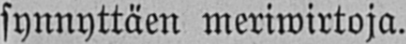synnyttäen merimirtoja.
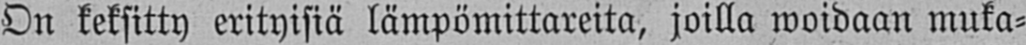On keksitty erityisiä lämpömittareita, joilla woidaan muka-
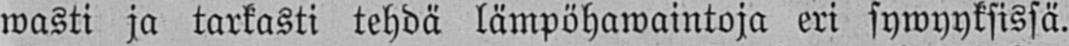wasti ja tarkasti tehdä lämpöhawaintoja eri sywyyksissä.
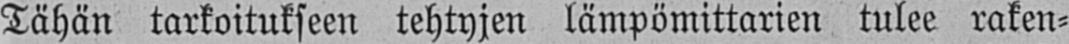Tähän tarkoitukseen tehtyjen lämpömittarien tulee raken-
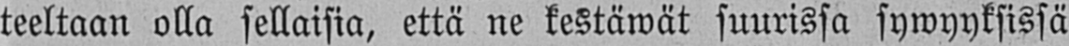teeltaan olla sellaisia, että ne kestäwät suurissa sywyyksissä
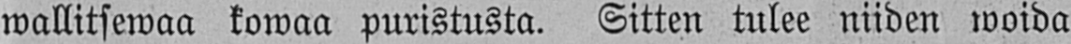wallitsewaa kowaa puristusta. Sitten tulee niiden woida
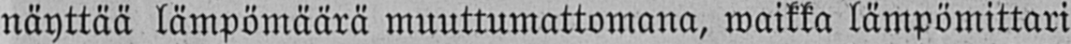näyttää lämpömäärä muuttumattomana, waikka lämpömittari
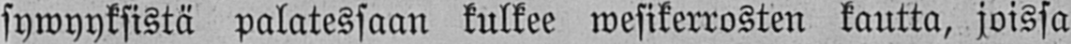sywyyksistä palatessaan kulkee wesikerrosten kautta, joissa
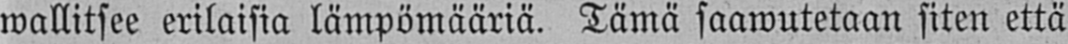wallitsee erilaisia lämpömääriä. Tämä saawutetaan siten että
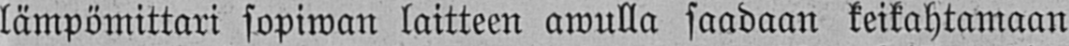lämpömittari sopiwan laitteen awulla saadaan keikahtamaan
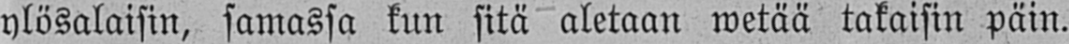ylösalaisin, samassa kun sitä aletaan wetää takaisin päin.
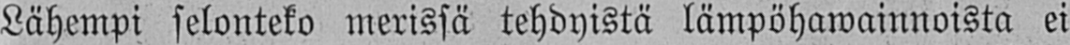Lähempi selonteko merissä tehdyistä lämpöhawainnoista ei
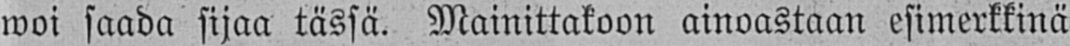woi saada sijaa tässä. Mainittakoon ainoastaan esimerkkinä
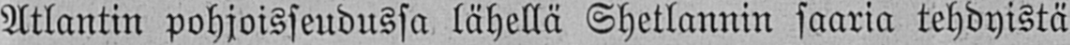Atlantin pohjoisseudussa lähellä Shetlannin saaria tehdyistä
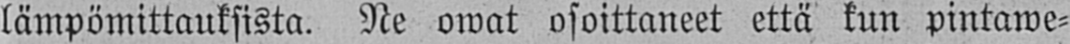lämpömittauksista. Ne owat osoittaneet että kun pintawe-
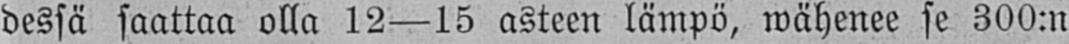dessä saattaa olla 12—15 asteen lämpö, wähenee se 300:n
